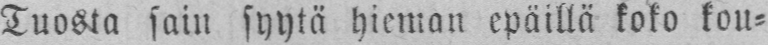Tuosta sain syytä hieman epäillä koko kou-
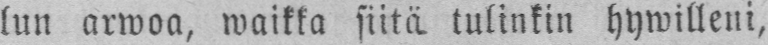lun arwoa, waikka siitä, tulinkin hywilleni,
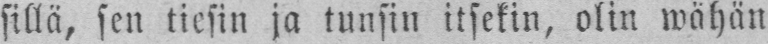sillä, sen tiesin ja tunsin itsekin, olin wähän
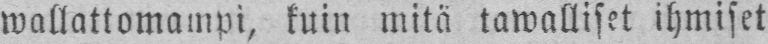wallattomampi, kuin mitä tawalliset ihmiset
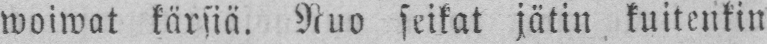woiwat kärsiä. Nuo seikat jätin kuitenkin
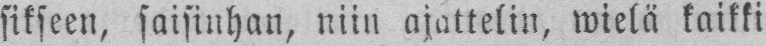sikseen, saisinhan, niin ajattelin, wielä kaikki
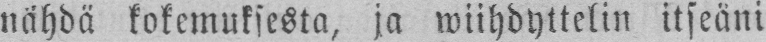nähdä kokemuksesta, ja wiihdyttelin itseäni
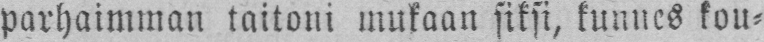parhaimman taitoni mukaan siksi, kunnes kou-
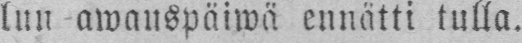lun awauspäiwä ennätti tulla.
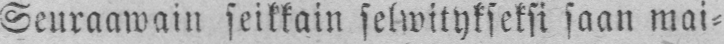Seuraawain seikkain selwitykseksi saan mai-
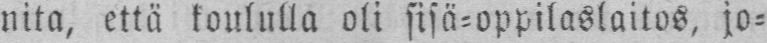nita, että koululla oli sisä-oppilaslaitos, jo-
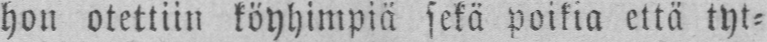hon otettiin köyhimpiä sekä poikia että tyt-
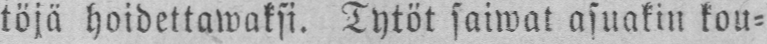töjä hoidettawaksi. Tytöt saiwat asuakin kou-
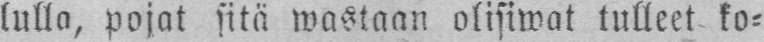lulla, pojat sitä wastaan olisiwat tulleet ko-
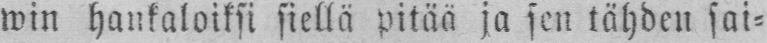win hankaloiksi siellä pitää ja sen tähden sai-
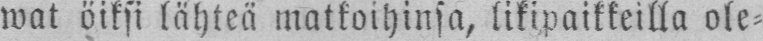wat öiksi lähteä matkoihinsa, likipaikkeilla ole-
